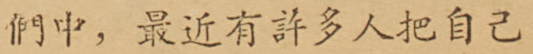們中，最近有許多人把自己
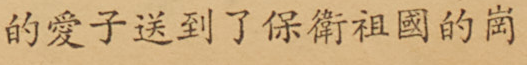的愛子送到了保衛祖國的崗
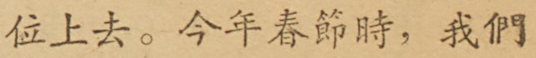位上去。今年春節時，我們
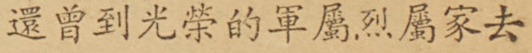還曾到光榮的軍屬烈屬家去
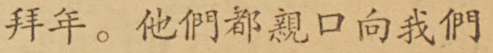拜年。他們都親口向我們
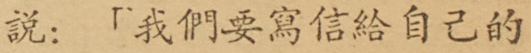說：「我們要寫信給自己的
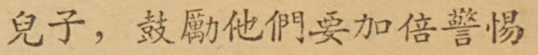兒子，鼓勵他們要加倍警惕
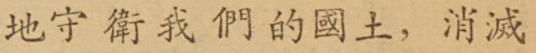地守衛我們的國土，消滅
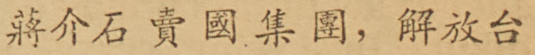蔣介石賣國集團，解放台
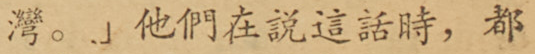灣。」他們在說這話時，都
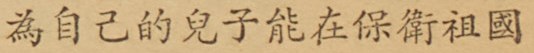為自己的兒子能在保衛祖國
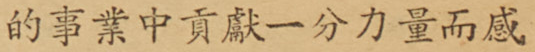的事業中貢獻一分力量而感
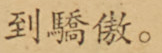到驕傲。
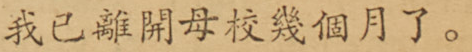我已離開母校幾個月了。
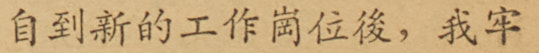自到新的工作崗位後，我牢
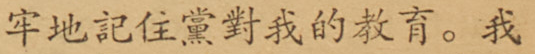牢地記住黨對我的教育。我
